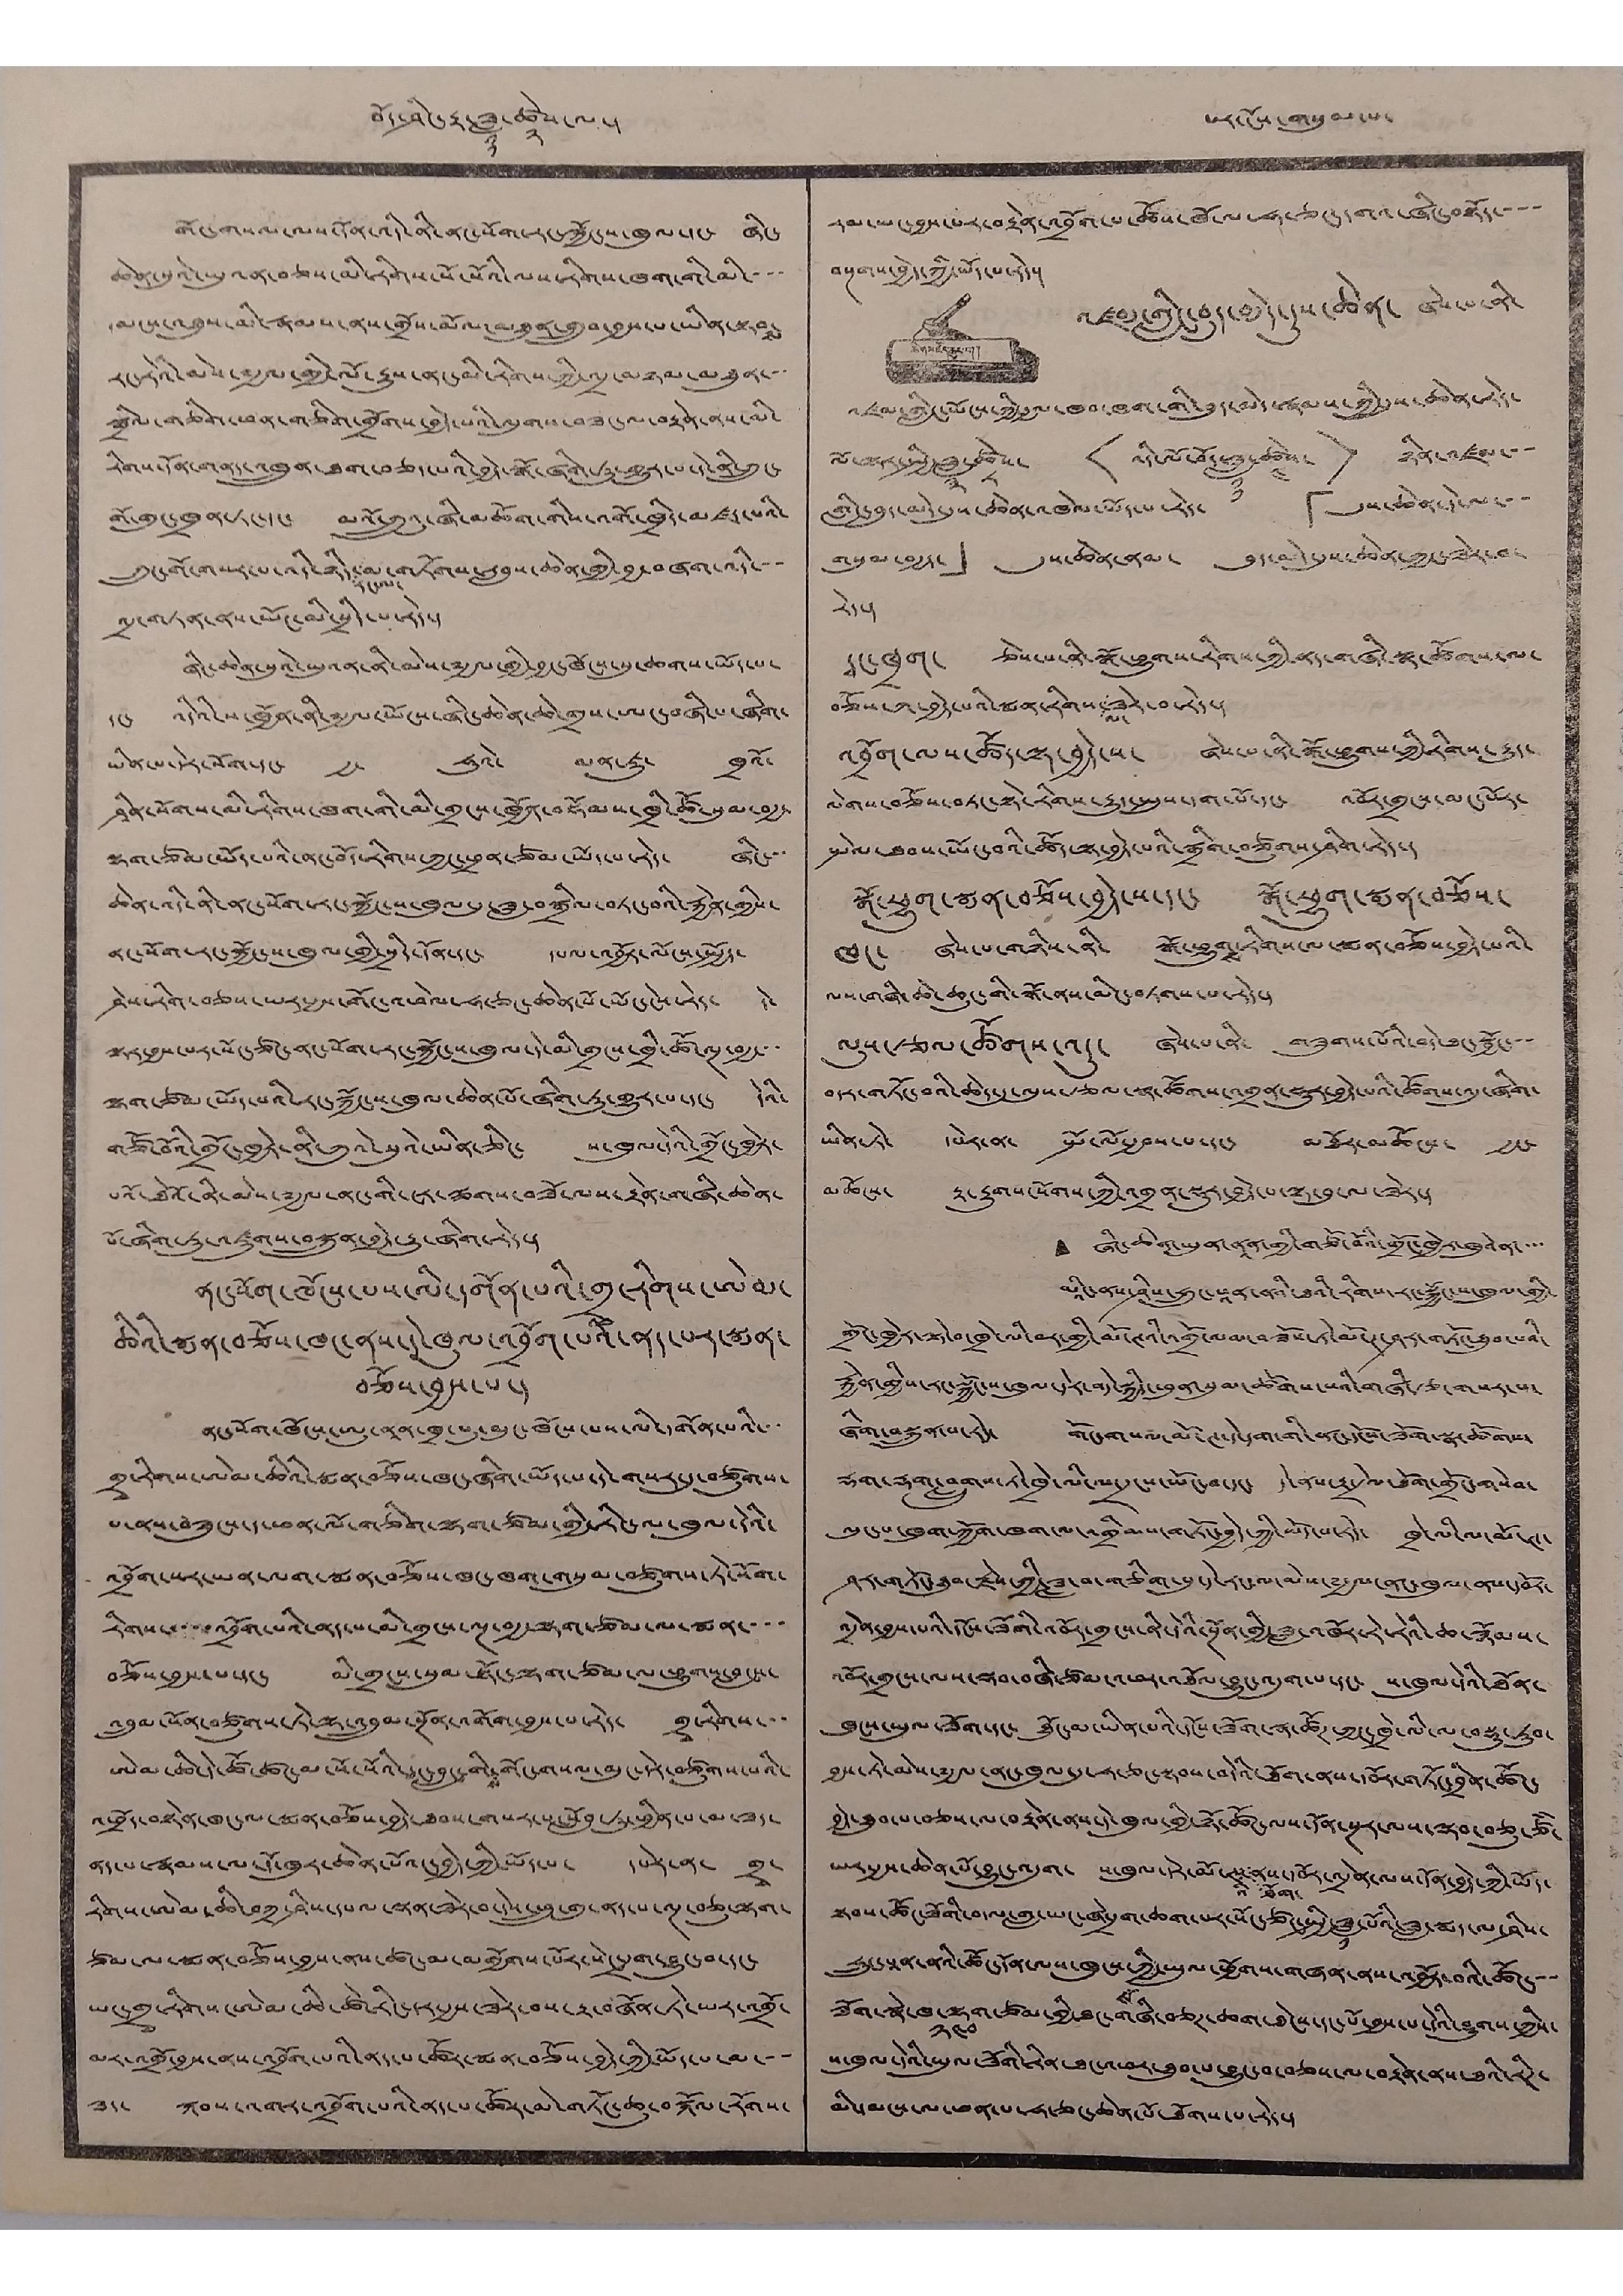བོད་ཤིང་རྟ་ཟླ་
༡༡
ཚེས་
༢
ལ་། པར་ངོས་གསུམ་པ་
གོང་གསལ་ལས་དོན་འདི་ནི་ནང་སོག་རང་སྐྱོང་ས་ཁུལ་དང་ ཞིང་
ཆེན་སུའེ་ཡུའན་བཅས་མི་རིགས་སོ་སོའི་ལས་རིགས་ཁག་གི་མི་་་་
མངས་འཐུས་མི་རྣམས་ནས་གྲོས་མོལ་མཐུན་གྲུབ་བྱས་པ་ཡིན་སྟབས་
རང་རེའི་མེས་༸རྒྱལ་གྱི་ལོ་རྒྱུས་ནང་མི་རིགས་ཀྱི་འདྲ་མཉམ་མཐུན་་་
སྒྲིལ་གཅིག་ཕན་གཅིག་གྲོགས་བྱེད་པའི་ལུགས་བཟང་ལ་བརྟེན་ནས་མི་
རིགས་དོན་གནད་འཁྲུན་ཐག་བཅད་པའི་བྱེད་སྒོ་ཞིག་ཏུ་གྱུར་པ་དེ་ནི་ཀྲུང་
གོ་གུང་ཁྲན་ཏང་དང་ མའོ་ཀྲུའུ་ཞི་མཆོག་གིས་འགོ་ཁྲིད་མཛད་པའི་
ཀྲུང་གོ་གསར་པ་འདི་ཉིད་
རང་ལ་
མ་གཏོགས་རླབས་ཆེན་གྱི་བྱ་བཞག་འདི་་་
འདྲ་གཏན་ནས་ཡོང་མི་སྲིད་པ་རེད་།
ཞིང་ཆེན་སུའེ་ཡུའན་ནི་མེས་༸རྒྱལ་གྱི་བྱང་ཁོངས་སུ་ཆགས་ཡོད་པ་
དང་ འདིའི་ས་ཁྱོན་ནི་༸རྒྱལ་ཡོངས་ཞིང་ཆེན་ཆེ་གྲས་ཨང་བཞི་པ་ཞིག་
ཡིན་པ་དེར་སོག་དང་ རྒྱ་ ཧུའེ་ མན་ཇུ་ ཁྲའོ་
ཤིན་སོགས་མི་རིགས་ཁག་གི་མི་གྲངས་ཁྱོན་བསྡོམས་ཁྲི་ཚོ་སུམ་བརྒྱ་
ལྷག་ཙམ་ཡོད་པའི་ནང་བོད་རིགས་ཀྱང་ཕྲན་ཙམ་ཡོད་པ་རེད་ ཞིང་་་
ཆེན་འདི་ནི་ནང་སོག་རང་སྐྱོང་ས་ཁུལ་དུ་ཟླ་བ་བསྒྲིལ་བཏང་བའི་རྐྱེན་གྱིས་
ནང་སོག་རང་སྐྱོང་ས་ཁུལ་གྱི་སྲིད་དོན་དང་ དཔལ་འབྱོར་ལོངས་སྤྱོད་
ཤེས་རིག་བཅས་ཡར་རྒྱས་གོང་འཕེལ་ཧ་ཅང་ཆེན་པོ་ཡོང་ངེས་རེད་ དེ་
ལྟར་བྱས་པར་སོང་ཙང་ནང་སོག་རང་སྐྱོང་ས་ཁུལ་དེ་མི་གྲངས་ཁྲི་ཚོ་ལྔ་བརྒྱ་་་
ལྷག་ཙམ་ཡོད་པའི་རང་སྐྱོང་ས་ཁུལ་ཆེན་པོ་ཞིག་ཏུ་གྱུར་པ་དང་ དེའི་
གཙོ་བོའི་གྲོང་ཁྱེར་ནི་ཀུའེ་སུའེ་ཡིན་ཅིང་ ས་ཁུལ་དེའི་གྲོང་ཁྱེར་
པའོ་ཐེའོ་ནི་མེས་༸རྒྱལ་ནང་གི་ངར་ལྕགས་བཟོ་ལས་རྟེན་གཞི་ཆེན་
པོ་ཞིག་ཏུ་འཛུགས་བསྐྲུན་བྱེད་རྒྱུ་ཞིག་རེད་།
ནང་སོག་ཁོངས་པས་ལི་དགོན་པའི་གྲྭ་རིགས་ཨེམ་
ཆིའི་སྨན་བཅོས་ཁང་ནས་དེ་ཁུལ་འབྲོག་པའི་ནད་པར་སྨན་
བཅོས་བྱས་པ་།
ནང་སོག་ཁོངས་ཨུ་ནན་ཁྲ་པུ་མུང་ཁོངས་པས་ལི་དགོན་པའི་་་
གྲྭ་རིགས་ཨེམ་ཆིའི་སྨན་བཅོས་ཁང་ཞིག་ཡོད་པ་དེ་གསར་དུ་བཙུགས་
པ་ནས་བཟུངས་ད་ཕན་ལོ་གཅིག་ལྷག་ཙམ་གྱི་རིང་ལ་ཁུལ་དེའི་
འབྲོག་སར་ཡན་ལག་སྨན་བཅོས་ཁང་ཁག་གསུམ་བཙུགས་ཏེ་སོག་
རིགས་་་་་འབྲོག་པའི་ནད་པ་མི་གྲངས་ལྔ་བརྒྱ་ལྷག་ཙམ་ལ་སྨན་་་་
བཅོས་བྱས་པ་དང་ མི་གྲངས་སུམ་སྟོང་ལྷག་ཙམ་ལ་ཕྱུགས་བླངས་
འབྲུམ་སོན་བཙུགས་ཏེ་ལྷ་འབྲུམ་སྔོན་འགོག་བྱས་པ་རེད་ གྲྭ་རིགས་་་
ཨེམ་ཆི་དེ་ཚོ་ཚང་མ་སོ་སོའི་དང་བླང་གི
ས་
གོང་གསལ་མུང་དེར་བཙུགས་པའི་
འཕྲོད་བསྟེན་ཁང་ལ་སྨན་བཅོས་བྱེད་ཐབས་གསར་པ་སློབ་ཏུ་ཕྱིན་པ་མ་ཟད་
ནད་པ་རྣམས་ལ་དོ་ཁུར་ཆེན་པོའང་བྱེད་ཀྱི་ཡོད་པ་ དཔེར་ན་ གྲྭ་
རིགས་ཨེམ་ཆི་བཀྲ་ཤིས་དཔལ་ལྡན་ཟེར་བ་དེས་ཕྲུ་གུ་ནད་པ་ལྔ་བཅུ་ལྷག་
ཙམ་ལ་སྨན་བཅོས་བྱས་ནས་ཚང་མ་མགྱོགས་པོར་སེང་དྲག་བྱུང་བ་དང་
ཡང་གྲྭ་རིགས་ཨེམ་ཆི་ཚེ་རིང་དར་རྒྱས་ཟེར་བས་རྟ་བཞོན་ཏེ་ཡར་འགྲོ་
མར་འགྲོ་བྱས་ནས་འབྲོག་པའི་ནད་པ་ཚོར་སྨན་བཅོས་བྱེད་ཀྱི་ཡོད་པ་མ་་་
ཟད་ སྐབས་འགར་འབྲོག་པའི་ནད་པ་ཚོར་མེ་གཏོང་ཆུ་བསྐོལ་རོགས་
རམ་ཡང་བྱས་པར་བརྟེན་འབྲོག་པ་ཚོས་ཁོ་ལ་ཧ་ཅང་དགའ་ཞིང་བསྟོད་་་་
བསྔགས་བྱེད་ཀྱི་ཡོད་པ་རེད་།
ཚིགས་རྫོད་ཆུང་བ་།
འཛམ་གླིང་བུད་མེད་དུས་ཆེན་ ཞེས་པ་ནི་
འཛམ་གླིང་ཡོངས་ཀྱི་རྒྱལ་ཁབ་ཁག་གི་བུད་མེད་རྣམས་ཀྱི་དུས་ཆེན་རེད་
ལོ་ལྟར་སྤྱི་ཟླ་
༣
ཚེས་
༨
<འདི་ལོ་བོད་ཟླ་
༡༡
ཚེས་
༤
> ཉིན་འཛམ་་་
གླིང་བུད་མེད་དུས་ཆེན་འཁེལ་ཡོད་པ་རེད་ 「དུས་ཆེན་དེ་ལ་་་
གསུམ་བརྒྱད་」 དུས་ཆེན་ནམ་ བུད་མེད་དུས་ཆེན་ཀྱང་ཟེར་བ་
རེད་།
དྭང་ཁྲག་ ཅེས་པ་ནི་སྒོ་ཕྱུགས་རིགས་ཀྱི་ནད་གཞི་སྣ་ཚོགས་ལ་
བཅོས་ཀ་བྱེད་པའི་སྨན་རིགས་
ལ་
ཟེར་བ་རེད་།
འབྲོག་ལས་ཚོད་ལྟ་བྱེད་ས་ ཞེས་པ་ནི་སྒོ་ཕྱུགས་ཀྱི་རིགས་རྒྱུད་
ལེགས་བཅོས་བཏང་སྟེ་རིགས་རྒྱུད་སྤུས་དག་པོ་དང་ འབོར་གྲངས་མང་པོར་
སྤེལ་ཐབས་ཡོང་བའི་ཚོད་ལྟ་བྱེད་པའི་སྒྲིག་བཙུགས་ཤིག་རེད་།
སྒོ་ཕྱུག་སྨན་བཅོས་བྱེད་པ་དང་ སྒོ་ཕྱུག་སྨན་བཅོས་
ཁང་ ཞེས་པ་གཉིས་ནི་ སྒོ་ཕྱུགས་རིགས་ལ་སྨན་བཅོས་བྱེད་པའི་
ལས་གཞི་ཆེ་ཆུང་གི་སྒོ་ནས་མིང་བཏགས་པ་རེད་།
ལུས་རྩལ་ཚོགས་འདུ་ ཞེས་པ་ནི་ གཟུགས་པོའི་བདེ་ཐང་སྦྱོང་་་
བདར་གཏོང་བའི་ཆེད་དུ་ལུས་རྩལ་སྣ་ཚོགས་འགྲན་སྡུར་བྱེད་པའི་ཚོགས་འདུ་ཞིག་
ཡིན་ཏེ་ དཔེར་ན་ སྤོ་ལོ་བྱས་པ་དང་ མཐོར་མཆོངས་ རྒྱང་
མཆོངས་ རྟ་རྒྱུགས་སོགས་ཀྱི་འགྲན་སྡུར་བྱེད་པ་ལྟ་བུ་ལ་ཟེར་།
• ཞིང་ཆེན་ཡུན་ནཱན་གྱི་གཙོ་བོའི་གྲོང་ཁྱེར་ཁུའེ་ན་་་་
མིའང་ནས་ཤིས་ཧྲུང་ཕཱན་ནའི་ཐའི་རིགས་རང་སྐྱོང་ས་ཁུལ་གྱི་
གྲོང་ཁྱེར་ལྟེ་བ་ཁྲེ་ལི་བར་གྱི་མོ་ཊའི་འགྲོ་ལམ་བཟོས་ཏེ་མོ་ཊ་ཤར་གཏོང་ཐུབ་པའི་
རྐྱེན་གྱིས་རང་སྐྱོང་ས་ཁུལ་དེར་བདེ་སྐྱིད་ཕུན་སུམ་ཚོགས་པའི་གཞི་རྩ་གསར་པ་
ཞིག་བསྐྲུན་པ་རེད་ གོང་གསལ་མོ་ཊ་དེ་དག་གི་ནང་དངོས་ཟོག་སྣ་ཚོགས་
རྡག་རྡག་བླུགས་ཏེ་ཁྲེ་ལི་ས་དྲངས་ཡོང་བ་དང་ དེ་ནས་རྟ་དྲེལ་ཐོག་གྲོང་གསེབ་
ལུང་པ་ཁུག་ཀྱོག་ཁག་ལ་འགྲིམས་གཏོང་བྱེད་ཀྱི་ཡོད་པ་རེད་ ཁྲེ་ལི་ལ་མོ་ཊ་
ཤར་གཏོང་ཐུབ་རྗེས་ཀྱི་ཟླ་བ་གཅིག་པུ་དེ་རང་ལ་མེས་༸རྒྱལ་ནང་ཁུལ་ནས་དབོར་
འདྲེན་བྱས་པའི་དངོས་ཟོགི་འབོར་གྲངས་ནི་དེའི་སྔོན་གྱི་ཟླ་འཁོར་རེ་རེའི་ཆ་སྙོམས་
འབོར་གྲངས་ལས་ལྡབ་བཞི་ཙམ་འཕར་འཐོལ་བྱུང་འདུག་པ་དང་ ས་ཁུལ་དེའི་ཐོན་
ཁུངས་ཡུལ་ཟོག་དང་ ཐོུང་མ་ཡིན་པའི་དངོས་ཟོག་སྣ་ཚོཊ་ཀྱང་ཁྲེ་ལི་ལ་བསྡུ་ཏུབ་
བྱས་ཏེ་མེས་༸རྒྱལ་ནང་ཁུལ་དུ་ཧ་ཅང་སྟབས་བདེའི་ཐོག་ནས་དབོར་གཏོང་བྲིན་ཚོང་
བྱེད་ཐུབ་པ་བཅས་ལ་བརྟེན་ནས་དེ་ཁུལ་གྱི་ཉོ་ཚོང་ལས་དོན་སྔར་ལས་ལྡབ་བཅུ་ཙཾ་
ཡར་རྒྱས་ཆེན་པོ་བྱུང་འདུག་ ས་ཁུལ་དེར་མོ་ཊ
འི་ཐོག་
ནས་དབོར་འདྲེན་ལས་དོན་བྱེད་ཀྱི་ཡོད་
སྟབས་ཚོང་ཟོགི་བ་ལ་གླ་ཡང་ཞེ་དྲག་ཆགས་པར་སོང་ཙང་སྤྱི་ཟླ་
༡
པོའི་ཟླ་སྨད་ལ་ཤིས་
ཧྲུང་པཱན་ནའི་ཚོང་དོན་ལས་ཁུངས་ཀྱི
ས
་ཡུལ་ཕྱོགས་གཞན་ནས་འབྱོར་བའི་ཚོང་་་
ཟོག་སྣེ་ཁ་
༢༤༠
ལྷག་ཙམ་གྱི་ཐང་གཞི་བཅཊ་ཆག་ཐེངས་དང་པོ་བྱས་པ་དེའི་ཤུགས་ཀྱིས་
ས་ཁུལ་དེའི་ཡུལ་ཟོགི་རིན་ཐང་འཕར་ཐུབ་པ་བྱུང་བ་བཅས་ལ་བརྟེན་ནས་ཐའི་རིཊ་
མི་དམངས་ལ་ཕན་པ་ཧ་ཅང་ཆེན་པོ་ཐོགས་པ་རེད་།
